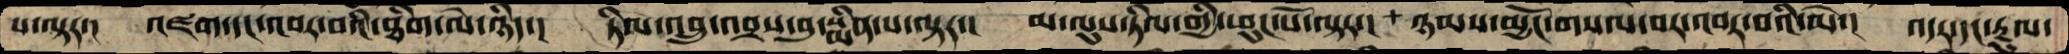པ་ལྟར་།  འཛག་དང་འབར་བའི་ཐིག་ལེ་ཉིད་། ཏིལ་འབྲུ་འབྲས་བུ་སྨིན་པ་ལྟར་། མ་ལུས་ཏིལ་གྱི་ཕུང་པོ་ལྟར་། ཉམས་མྱོང་གསལ་བར་འབར་བའི་མེ་། འདར་དང་རྔུལ་
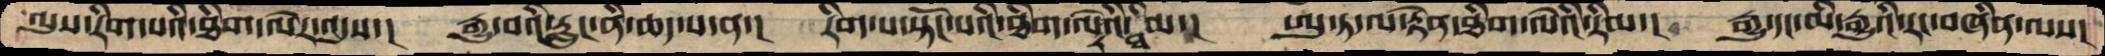ལུས་རིག་པའི་ཐིག་ལེར་འདུས་། རྒྱུ་བའི་རླུང་ནི་ཆད་པ་ན་། རིག་པ་སྟོང་པའི་ཐིག་ལེའི་ཐིམ་། ཨུ་ཏ་ལ་རྟེན་ཐིག་ལེའི་རིམ་། རྒྱུ་དང་མི་རྒྱུའི་རང་བཞིན་ལས།
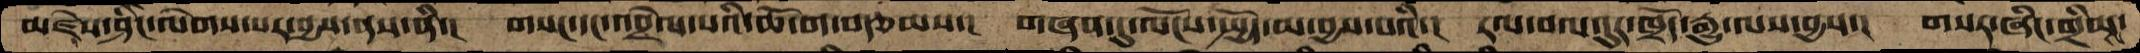མཛེས་ཤིང་ལེགས་པར་བྱས་ནས་ནི་། གསང་དང་འབྲེལ་པའི་ཆོ་ག་བརྩམས་། གཞན་དུ་ལོངས་སྤྱོད་མ་བྱས་པའི་། རལ་བལ་དུར་ཁྲོད་རྒྱུ་ལས་བྱས་།  གསར་ཞིང་གྲིམས་
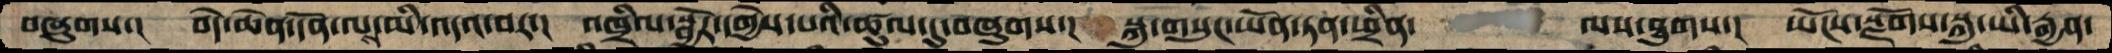བཞུགས་། བདེ་ཆེན་དོན་ལས་མི་འདའ་བར་། འཁྲིལ་སྦྱོར་དགྱེས་པའི་ཚུལ་དུ་བཞུགས་། སྐུ་གསུང་ཡོན་ཏན་ཕྲིན་   ལས་ཐུགས་།  ཡོངས་སྫོགས་སྐུ་ཡི་རྒྱན་
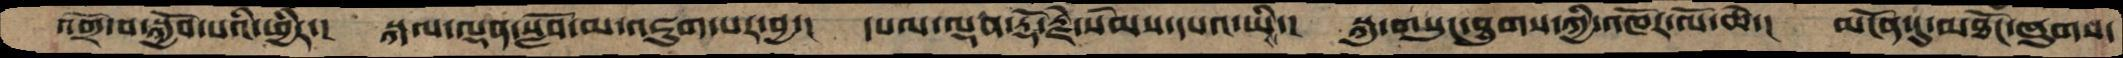འགྲོ་བ་སྐྱོབ་པའི་ཕྱིར་། སྐལ་ལྡན་སློབ་མ་འཇུག་པར་བྱ་། དཔལ་ལྡན་རྡོ་རྗེ་སེམས་དཔའ་ཡིས་། སྐུ་གསུང་ཐུགས་ཀྱི་འཁོར་ལོ་ཆེ་། མངོན་དུ་མཐོང་ཞུགས་
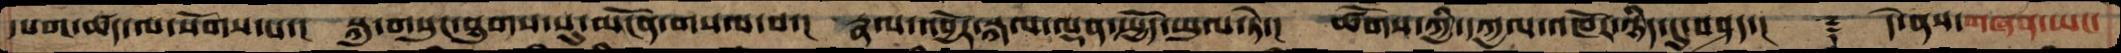དཔག་ཚད་ལ་སོགས་པ་། སྐུ་གསུང་ཐུགས་སུ་མངོན་གསལ་བ་། རྣལ་འབྱོར་སྐལ་ལྡན་སྤྱོད་ཡུལ་ཏེ་། ཚོགས་ཀྱི་དཀྱིལ་འཁོར་ཉིད་དུ་བཤད་།  ༈  དེ་ནས་གཞན་ཡང་
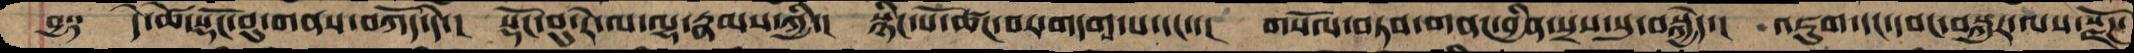བྱ༑  དེ་ཚེ་སྡོང་བུ་གནས་བཀོད་དེ་། སྡོང་བུ་རེ་ལ་ལྷ་རྣམས་ཀྱི་། སྙིང་པོ་ཚོང་བར་གདགས་པ་དང་་། གསོལ་བཏབ་གནང་བྱིན་སྲས་སུ་བསྐྱེད་། འཇུག་དང་དབང་བསྐུར་ལས་སྫོཌ་
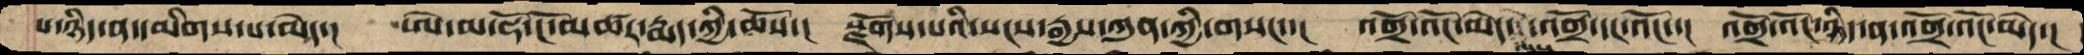པ་ཉིད་ན་དམིགས་པ་མེད་། ཨེ་མ་ཧོ་ངོ་མཚར་རྨད་ཀྱི་ཆོས་། སྫོགས་པའི་སངས་རྒྱས་ཀུན་གྱི་གསང་་། འགྲོ་འོང་མེད་པས་འགྲོ་དང་འོང་་། འགྲོ་འོང་ཉིད་ན་འགྲོ་འོང་མེད་།
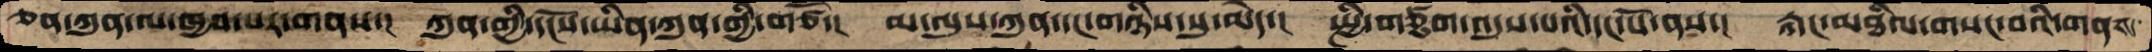ཅན་ཀུན་ལ་ཁྱབ་པར་གནས་། ཀུན་གྱི་དངོས་ཡིན་ཀུན་གྱི་གཙོ་། མ་ལུས་ཀུན་དང་གཉིས་སུ་མེད་། སྤྱི་གཙུག་འདུས་པའི་དང་པོ་ནས་། རྐང་མཐིལ་གསང་བའི་གནས་
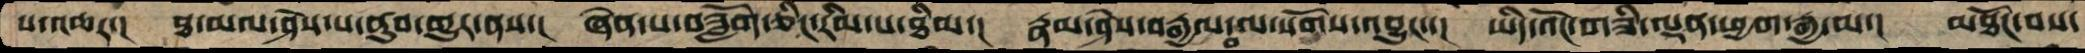པ་འཆར་། ཐ་མལ་ཤེས་པ་ནུབ་གྱུར་ནས་། ཞེན་པ་བཟློག་ཅིང་རིམ་པ་ཐིམ་། རྣམ་ཤེས་བརྒྱལ་བ་ལ་སོགས་འབྱུང་་། ཡིད་འོང་གཟི་ལྡན་ཕྱག་རྒྱ་མ་། མཐོང་བས་
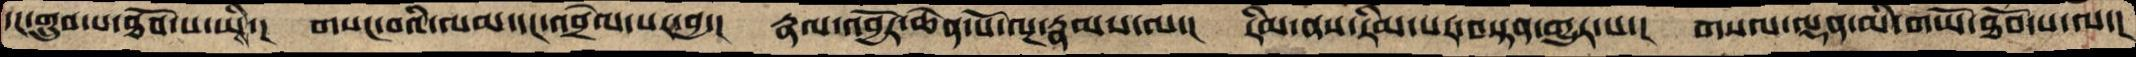དང་གྲུབ་པ་ཐོབ་པ་ཡིས་། གསང་བའི་ལམ་དང་འབྲེལ་པར་བྱ་། རྣལ་འབྱོར་ཆེན་པོ་ལྔ་རྣམས་ལ་། རིམ་ནས་རིམ་པར་བསྟན་གྱུར་པ་། གསལ་ལྡན་མི་གཡོ་ཐོབ་པ་ལ་།
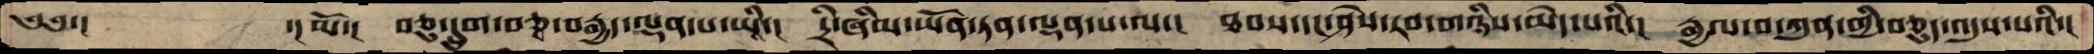༄༅་།       ་།མོ་། བཅུ་དྲུག་བཅྭ་བརྒྱད་ལྡན་པ་ཡིས་། དྲི་ཞིམ་ཡོན་ཏན་ལྡན་པ་ལ་། ཐབས་དང་ཤེས་རབ་གཉིས་མེད་པའི་། རྒྱལ་བ་ཀུན་གྱི་བཅུད་འདུས་པའི་།
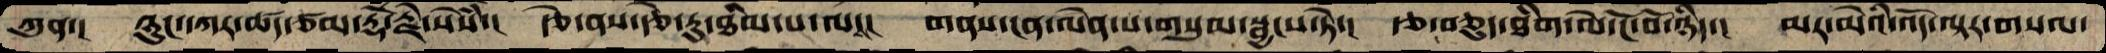ཀུན་།  ཉུང་དཀར་ཚད་ཙམ་རྡོ་རྗེ་སེཾས་། རྩེ་ནས་རྩེ་རུ་ཐིམ་པ་ལས་། གནས་ངན་ལེན་པ་གསུམ་སྦྱངས་ཏེ་། རྩ་བཅུད་ཐིག་ལེ་ངོ་བོ་ཉིད་། མར་མེའི་འོད་ལྟར་གསལ་
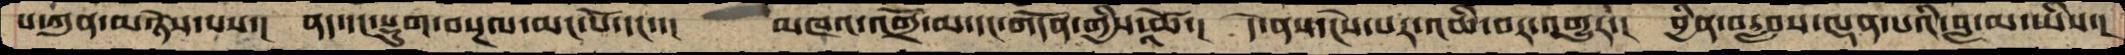པ་ཀུན་མཉེས་པས་། ནད་དང་སྡུག་བསྔལ་མང་པོ་དང་་། མཁའ་འགྲོ་མ་དང་གདོན་གྱིས་འཚོ་། དེ་ནས་ངེས་པར་འཆི་བར་འགྱུར་། བྱིན་བརླབས་ལྡན་པའི་བླ་མ་ཡིས་།
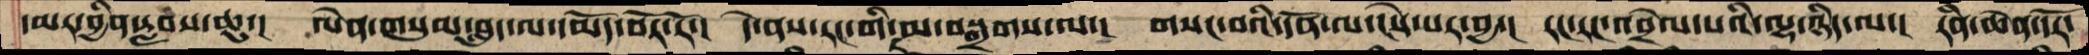དམར་བྱིན་རླབས་ཆུ་། ལེན་གསུམ་བླུད་ལ་དམོད་བོར་ཏོ་།  དེ་ནས་རང་གི་མ་བསྒྲགས་ལ་། གསང་བའི་དོན་ལ་ངེས་པར་བྱ་། རང་རང་འབྲེལ་པའི་ལྷ་ཉིད་ལ་། རིན་ཆེན་དོར་
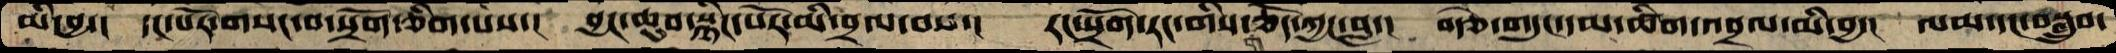མི་བྱ་།  དང་པོར་གསང་བ་སྲོག་ཅིག་པས་། བྱང་ཆུབ་སྙིང་པོར་མི་བྲལ་བས་། རང་སྲོག་རང་གིས་གཅོད་ཀྱང་བླ་། བརྩེ་གདུང་དམ་ཚིག་འབྲལ་མི་བྱ་། ལམ་དང་བསྒྲུབ་
